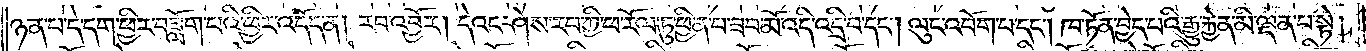ཉན་པ་དེ་དག་ཕྱིར་བཟློག་པའི་ཕྱིར་འདོད་ན། རབ་འབྱོར། དེའང་ཤེས་རབ་ཀྱི་ཕ་རོལ་ཏུ་ཕྱིན་པ་ཟབ་མོ་འདི་འདྲི་བ་དང༌། ལུང་འབོག་པ་དང༌། ཁ་ཏོན་བྱེད་པའི་རྒྱུ་རྐྱེན་མི་ལྡན་པ་སྟེ།
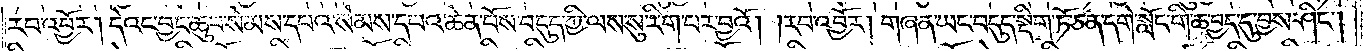རབ་འབྱོར། དེའང་བྱང་ཆུབ་སེམས་དཔའ་སེམས་དཔའ་ཆེན་པོས་བདུད་ཀྱི་ལས་སུ་རིག་པར་བྱའོ། །རབ་འབྱོར། གཞན་ཡང་འདུད་སྡིག་ཏོ་ཅན་དགེ་སློང་གི་ཆ་བྱད་དུ་བྱས་ཤིང༌།
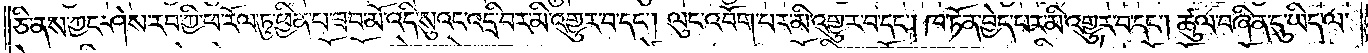ཅི་ནས་ཀྱང་ཤེས་རབ་ཀྱི་ཕ་རོལ་ཏུ་ཕྱིན་པ་ཟབ་མོ་འདི་སུའང་འདྲི་བར་མི་འགྱུར་བ་དང༌། ལུང་འབོག་པར་མི་འགྱུར་བ་དང༌། ཁ་ཏོན་བྱེད་པར་མི་འགྱུར་བ་དང༌། ཚུལ་བཞིན་དུ་ཡིད་ལ་
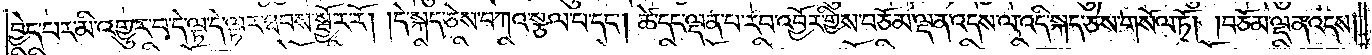བྱེད་པར་མི་འགྱུར་བ་དེ་ལྟ་དེ་ལྟར་ཐབས་སྦྱོར་རོ། །དེ་སྐད་ཅེས་བཀའ་སྩལ་བ་དང༌། ཚེ་དང་ལྡན་པ་རབ་འབྱོར་གྱིས་བཅོམ་ལྡན་འདས་ལ་འདི་སྐད་ཅེས་གསོལ་ཏོ། །བཅོམ་ལྡན་འདས།
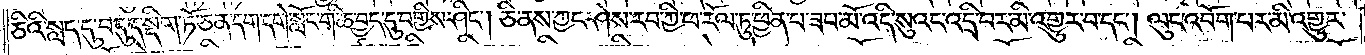ཅིའི་སླད་དུ་བདུད་སྡིག་ཏོ་ཅན་དག་དགེ་སློང་གི་ཆ་བྱད་དུ་བགྱིས་ཤིང༌། ཅི་ནས་ཀྱང་ཤེས་རབ་ཀྱི་ཕ་རོལ་ཏུ་ཕྱིན་པ་ཟབ་མོ་འདི་སུའང་འདྲི་བར་མི་འགྱུར་བ་དང༌། ལུང་འབོག་པར་མི་འགྱུར་
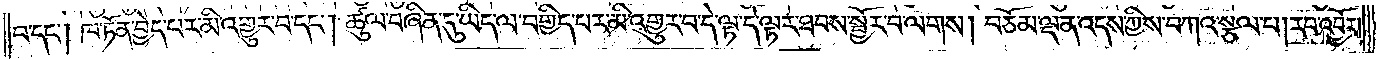བ་དང༌། ཁ་ཏོན་བྱེད་པར་མི་འགྱུར་བ་དང༌། ཚུལ་བཞིན་དུ་ཡིད་ལ་བགྱིད་པར་མི་འགྱུར་བ་དེ་ལྟ་དེ་ལྟར་ཐབས་སྦྱོར་བ་ལགས། བཅོམ་ལྡན་འདས་ཀྱིས་བཀའ་སྩལ་པ། རབ་འབྱོར།
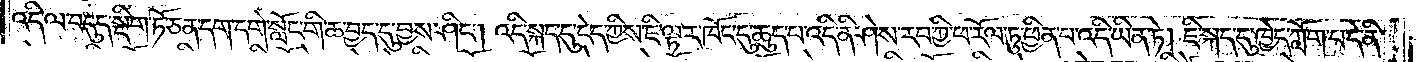འདི་ལ་བདུད་སྡིག་ཏོ་ཅན་དག་དགེ་སློང་གི་ཆ་བྱད་དུ་བྱས་ཤིང༌། འདི་སྐད་དུ་ངེད་ཀྱིས་ཇི་ལྟར་ཁོང་དུ་ཆུད་པ་འདི་ནི་ཤེས་རབ་ཀྱི་ཕ་རོལ་ཏུ་ཕྱིན་པ་འདི་ཡིན་ཏེ། ཇི་སྐད་དུ་ཁྱེད་ཀློག་པ་དེ་ནི་
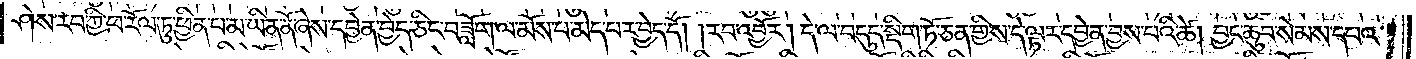ཤེས་རབ་ཀྱི་ཕ་རོལ་ཏུ་ཕྱིན་པ་མ་ཡིན་ནོ་ཞེས་དབྱེན་བྱེད་ཅིང་བཟློག་ལ་མོས་པ་མེད་པར་བྱེད་དོ། །རབ་འབྱོར། དེ་ལ་བདུད་སྡིག་ཏོ་ཅན་གྱིས་དེ་ལྟར་དབྱེན་བྱས་པའི་ཚེ། བྱང་ཆུབ་སེམས་དཔའ་
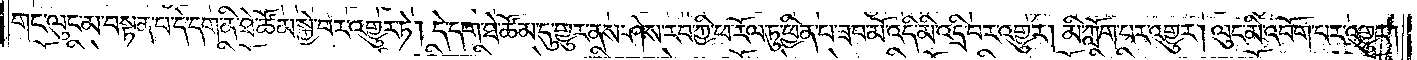གང་ལུང་མ་བསྟན་པ་དེ་དག་ནི་ཐེ་ཚོམ་སྐྱེ་བར་འགྱུར་ཏེ། དེ་དག་ཐེ་ཚོམ་དུ་གྱུར་ནས་ཤེས་རབ་ཀྱི་ཕ་རོལ་ཏུ་ཕྱིན་པ་ཟབ་མོ་འདི་མི་འདྲི་བར་འགྱུར། མི་ཀློག་པར་འགྱུར། ལུང་མི་འབོག་པར་འགྱུར།
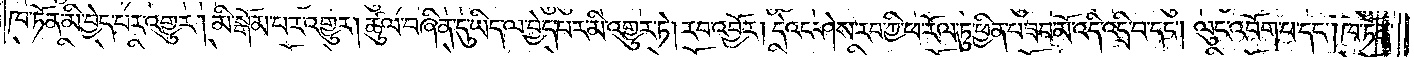ཁ་ཏོན་མི་བྱེད་པར་འགྱུར། མི་སྒོམ་པར་འགྱུར། ཚུལ་བཞིན་དུ་ཡིད་ལ་བྱེད་པར་མི་འགྱུར་ཏེ། རབ་འབྱོར། དེའང་ཤེས་རབ་ཀྱི་ཕ་རོལ་ཏུ་ཕྱིན་པ་ཟབ་མོ་འདི་འདྲི་བ་དང༌། ལུང་འབོག་པ་དང༌། ཁ་ཏོན་
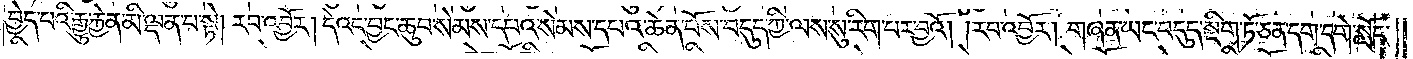བྱེད་པའི་རྒྱུ་རྐྱེན་མི་ལྡན་པ་སྟེ། རབ་འབྱོར། དེའང་བྱང་ཆུབ་སེམས་དཔའ་སེམས་དཔའ་ཆེན་པོས་བདུད་ཀྱི་ལས་སུ་རིག་པར་བྱའོ། །རབ་འབྱོར། གཞན་ཡང་བདུད་སྡིག་ཏོ་ཅན་དག་དགེ་སློང་
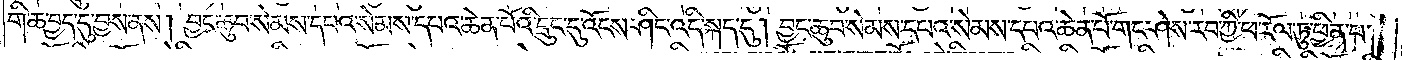གི་ཆ་བྱད་དུ་བྱས་ནས། བྱང་ཆུབ་སེམས་དཔའ་སེམས་དཔའ་ཆེན་པོའི་དྲུང་དུ་འོངས་ཤིང་འདི་སྐད་དུ། བྱང་ཆུབ་སེམས་དཔའ་སེམས་དཔའ་ཆེན་པོ་གང་ཤེས་རབ་ཀྱི་ཕ་རོལ་ཏུ་ཕྱིན་པ་
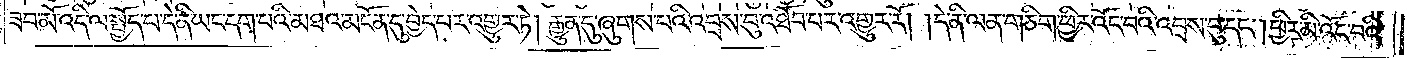ཟབ་མོ་འདི་ལ་སྤྱོད་པ་དེ་ནི་ཡང་དག་པའི་མཐའ་མངོན་དུ་བྱེད་པར་འགྱུར་ཏེ། རྒྱུན་དུ་ཞུགས་པའི་འབྲས་བུ་འཐོབ་པར་འགྱུར་རོ། །དེ་ནི་ལན་གཅིག་ཕྱིར་འོང་བའི་འབྲས་བུ་དང༌། ཕྱིར་མི་འོང་བའི་
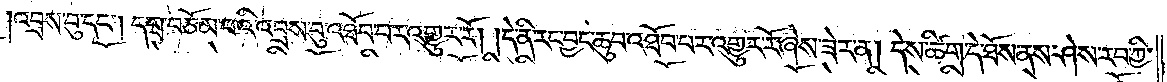འབྲས་བུ་དང༌། དགྲ་བཅོམ་པའི་འབྲས་བུ་འཐོབ་པར་འགྱུར་རོ། །དེ་ནི་རང་བྱང་ཆུབ་འཐོབ་པར་འགྱུར་རོ་ཞེས་ཟེར་ན། དེས་ཚིག་དེ་ཐོས་ནས་ཤེས་རབ་ཀྱི་
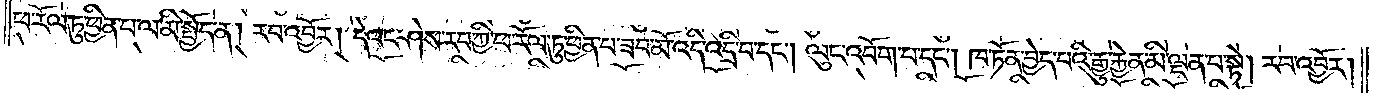ཕ་རོལ་ཏུ་ཕྱིན་པ་ལ་མི་སྤྱོད་ན། རབ་འབྱོར། དེའང་ཤེས་རབ་ཀྱི་ཕ་རོལ་ཏུ་ཕྱིན་པ་ཟབ་མོ་འདི་འདྲི་བ་དང༌། ལུང་འབོག་པ་དང༌། ཁ་ཏོན་བྱེད་པའི་རྒྱུ་རྐྱེན་མི་ལྡན་པ་སྟེ། རབ་འབྱོར།
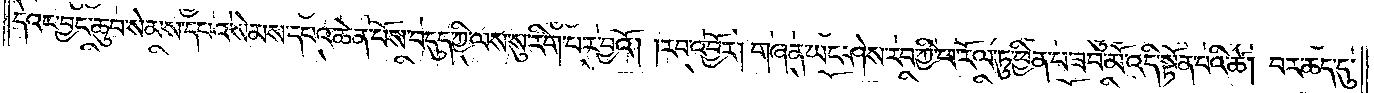དེའང་བྱང་ཆུབ་སེམས་དཔའ་སེམས་དཔའ་ཆེན་པོས་བདུད་ཀྱི་ལས་སུ་རིག་པར་བྱའོ། །རབ་འབྱོར། གཞན་ཡང་ཤེས་རབ་ཀྱི་ཕ་རོལ་ཏུ་ཕྱིན་པ་ཟབ་མོ་འདི་སྟོན་པའི་ཚེ། བར་ཆད་དུ་
